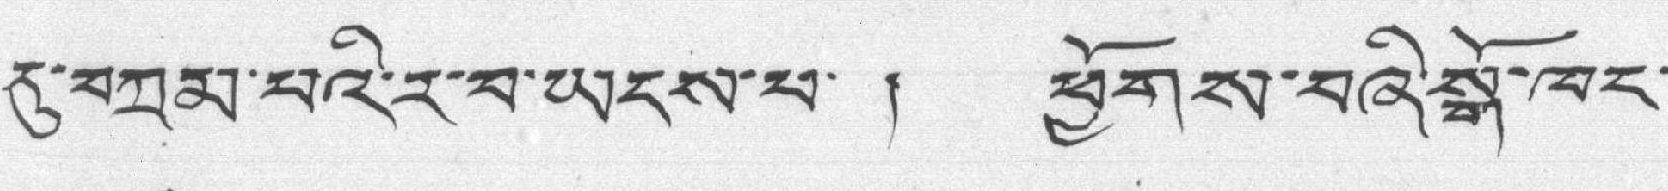དུ་བཀྲམ་པའི་ར་བ་ཡངས་པ་ ། ཕྱོགས་བཞི་སྒོ་ཁང་
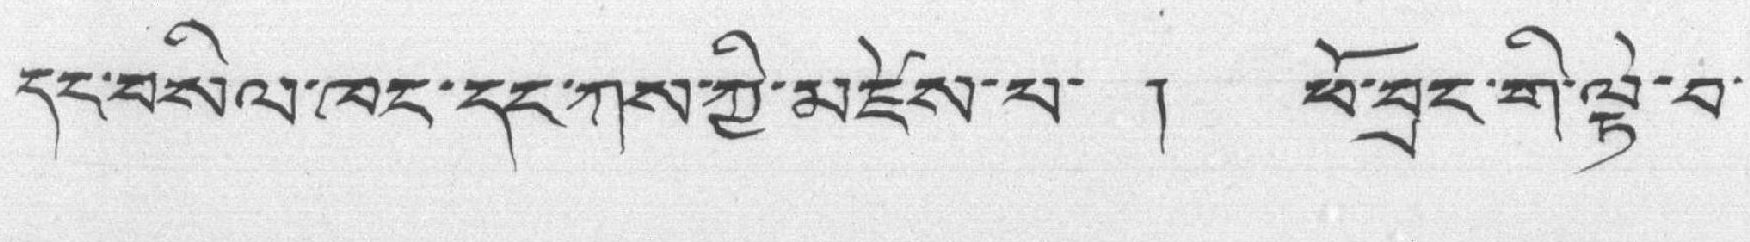དང་བསིལ་ཁང་དང་ཀས་ཀྱི་མཛེས་པ་ ། ཕོ་བྲང་གི་ལྟེ་བ་
